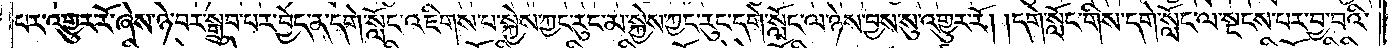པར་འགྱུར་རོ་ཞེས་ཉེ་བར་སྒྲུབ་པར་བྱེད་ན་དགེ་སློང་འཇིགས་པ་སྐྱེས་ཀྱང་རུང་མ་སྐྱེས་ཀྱང་རུང་དགེ་སློང་ལ་ཉེས་བྱས་སུ་འགྱུར་རོ། །དགེ་སློང་གིས་དགེ་སློང་ལ་སྡངས་པར་བྱ་བའི་
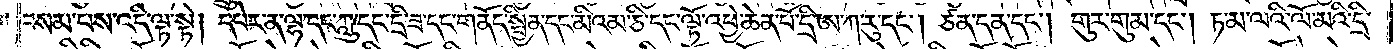བསམ་པས་འདི་ལྟ་སྟེ། དཔེར་ན་ལྷ་དང་ཀླུ་དང་དྲི་ཟ་དང་གནོད་སྦྱིན་དང་མིའམ་ཅི་དང་ལྟོ་འཕྱེ་ཆེན་པོ་དྲི་ཨ་ཀ་རུ་དང༌། ཙན་དན་དང༌། གུར་གུམ་དང༌། ཏ་མ་ལའི་ལོ་མའི་དྲི་
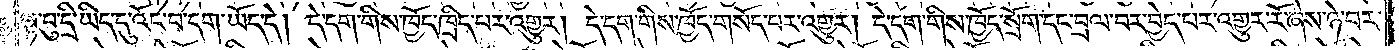ལྟ་བུ་དྲི་ཡིད་དུ་འོང་བ་དག་ཡོད་དེ། དེ་དག་གིས་ཁྱོད་ཁྲིད་པར་འགྱུར། དེ་དག་གིས་ཁྱོད་གསོད་པར་འགྱུར། དེ་དག་གིས་ཁྱོད་སྲོག་དང་བྲལ་བར་བྱེད་པར་འགྱུར་རོ་ཞེས་ཉེ་བར་
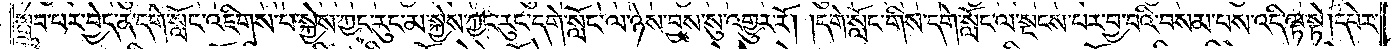སྒྲུབ་པར་བྱེད་ན་དགེ་སློང་འཇིགས་པ་སྐྱེས་ཀྱང་རུང་མ་སྐྱེས་ཀྱང་རུང་དགེ་སློང་ལ་ཉེས་བྱས་སུ་འགྱུར་རོ། །དགེ་སློང་གིས་དགེ་སློང་ལ་སྡངས་པར་བྱ་བའི་བསམ་པས་འདི་ལྟ་སྟེ། དཔེར་
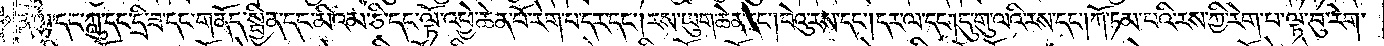ན་ལྷ་དང་ཀླུ་དང་དྲི་ཟ་དང་གནོད་སྦྱིན་དང་མིའམ་ཅི་དང་ལྟོ་འཕྱེ་ཆེན་པོ་རེག་པ་དར་དང༌། རས་ཡུག་ཆེན་དང༌། བེའུ་རས་དང༌། དར་ལ་དང༌། དུ་གུ་ལའི་རས་དང༌། ཀོ་ཏམ་པའི་རས་ཀྱི་རེག་པ་ལྟ་བུ་རེག་
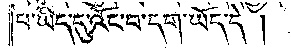པ་ཡིད་དུ་འོང་བ་དག་ཡོད་དེ །
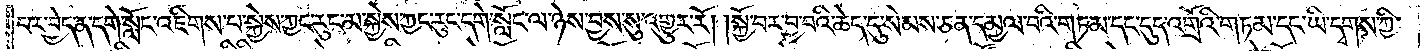བར་བྱེད་ན་དགེ་སློང་འཇིགས་པ་སྐྱེས་ཀྱང་རུང་མ་སྐྱེས་ཀྱང་རུང་དགེ་སློང་ལ་ཉེས་བྱས་སུ་འགྱུར་རོ། །སྐྱོ་བར་བྱ་བའི་ཆེད་དུ་སེམས་ཅན་དམྱལ་བའི་གཏམ་དང་དུད་འགྲོའི་གཏམ་དང་ཡི་དྭགས་ཀྱི་
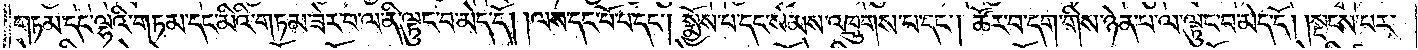གཏམ་དང་ལྷའི་གཏམ་དང་མིའི་གཏམ་ཟེར་བ་ལ་ནི་ལྟུང་བ་མེད་དོ། །ལས་དང་པོ་པ་དང༌། སྨྱོས་པ་དང་སེམས་འཁྲུགས་པ་དང༌། ཚོར་བ་དག་གིས་ཉེན་པ་ལ་ལྟུང་བ་མེད་དོ། །སྡངས་པར་
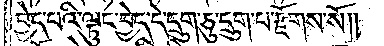བྱེད་པའི་ལྟུང་བྱེད་དོ་དྲུག་ཅུ་དྲུག་པ་རྫོགས་སོ༎
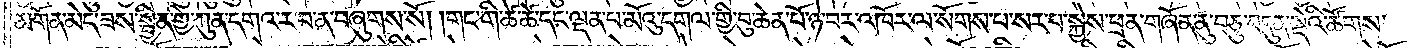མགོན་མེད་ཟས་སྦྱིན་གྱི་ཀུན་དགའ་ར་བ་ན་བཞུགས་སོ། །གང་གི་ཚེ་ཚེ་དང་ལྡན་པ་མོའུ་དགལ་གྱི་བུ་ཆེན་པོ་ཉེ་བར་འཁོར་ལ་སོགས་པ་སར་པ་སྐྱེས་ཕྲན་གཞོན་ནུ་བཅུ་བདུན་སྡེའི་ཚོགས་
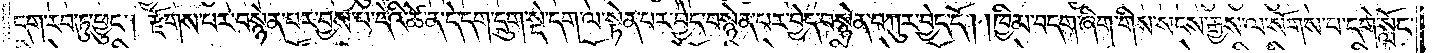དག་རབ་ཏུ་ཕྱུང༌། རྫོགས་པར་བསྙེན་པར་བྱས་པ་དེའི་ཚེ་ན་དེ་དག་དྲུག་སྡེ་དག་ལ་སྟེན་པར་བྱེད་བསྙེན་པར་བྱེད་བསྙེན་བཀུར་བྱེད་དོ། །ཁྱིམ་བདག་ཞིག་གིས་སངས་རྒྱས་ལ་སོགས་པ་དགེ་སློང་
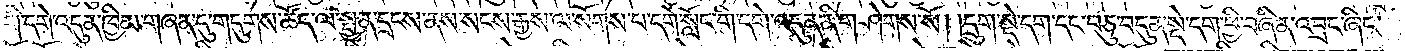གི་དགེ་འདུན་ཁྱིམ་གཞན་དུ་གདུགས་ཚོད་ལ་སྤྱན་དྲངས་ནས་སངས་རྒྱས་ལ་སོགས་པ་དགེ་སློང་གི་དགེ་འདུན་ནི་གཤེགས་སོ། །དྲུག་སྡེ་དག་དང་བཅུ་བདུན་སྡེ་དག་ཕྱི་བཞིན་འབྲང་ཞིང་
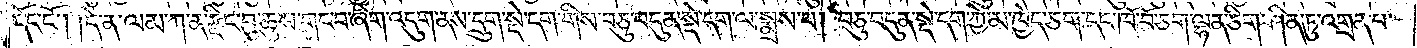དོང་ངོ༌། །དེ་ན་ལམ་ཀ་ན་རྫིང་བུ་ཆུས་གང་བ་ཞིག་འདུག་ནས་དྲུག་སྡེ་དག་གིས་བཅུ་བདུན་སྡེ་དག་ལ་སྨྲས་པ། བཅུ་བདུན་སྡེ་དག་ཀྱེ་མ་ཁྱེད་ཅག་དང་ཁོ་བོ་ཅག་ལྷན་ཅིག་ཤིན་ཏུ་འགྲན་པ་
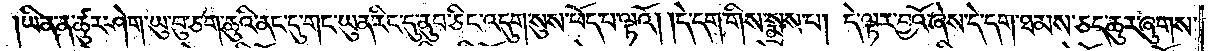ཡིན་ན་ཚུར་ཤེག་ཡུ་བུ་ཅག་ཆུའི་ནང་དུ་གང་ཡུན་རིང་དུ་ནུབ་ཅིང་འདུག་སུས་ཕོད་པ་ལྟའོ། །དེ་དག་གིས་སྨྲས་པ། དེ་ལྟར་བྱའོ་ཞེས་དེ་དག་ཐམས་ཅད་ཆུར་ཞུགས་
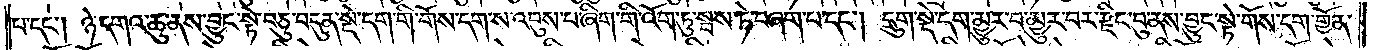པ་དང༌། ཉེ་དགའ་ཆུ་ནས་བྱུང་སྟེ་བཅུ་བདུན་སྡེ་དག་གི་གོས་དག་ས་འབུས་པ་ཞིག་གི་འོག་ཏུ་སྦས་ཏེ་བཞག་པ་དང༌། དྲུག་སྡེ་དག་མྱུར་བ་མྱུར་བར་རྫིང་བུ་ནས་བྱུང་སྟེ་གོས་དག་གྱོན་
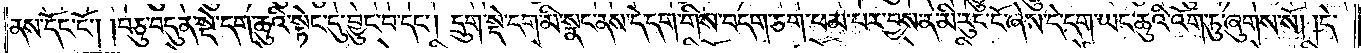ནས་དོང་ངོ༌། །བཅུ་བདུན་སྡེ་དག་ཆུའི་སྟེང་དུ་བྱུང་བ་དང༌། དྲུག་སྡེ་དག་མི་སྣང་ནས་དེ་དག་གིས་བདག་ཅག་ཕམ་པར་བྱས་ན་མི་རུང་ངོ་ཞེས་དེ་དག་ཡང་ཆུའི་འོག་ཏུ་ཞུགས་སོ། །དེ་
